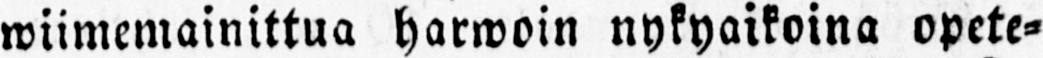wiimemainittua harwoin nykyaikoina opete-
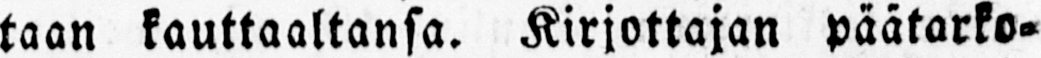taan kauttaaltansa. Kirjottajan päätarko-
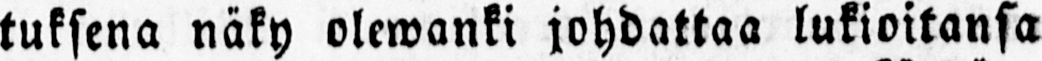tuksena näky olewanki johdattaa lukioitansa
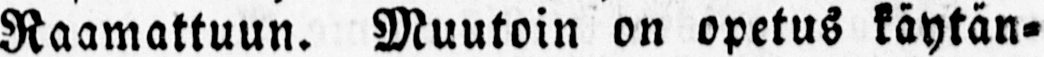Raamattuun. Muutoin on opetus käytän-
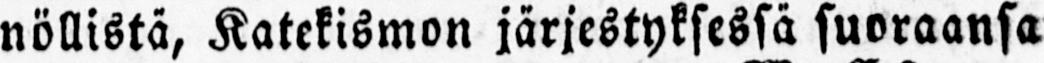nöllistä, Katekismon järjestyksessä suoraansa
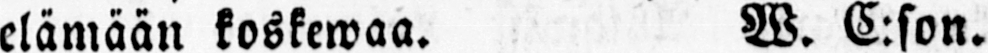elämään koskewaa. W. C:son.
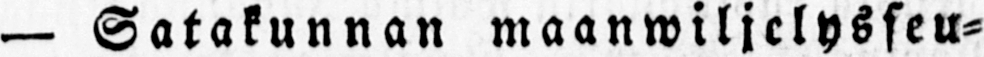— Satakunnan maanwiljelysseu-
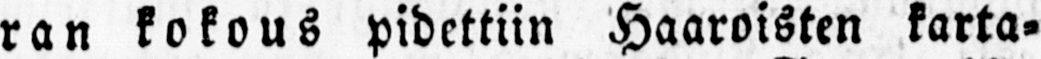ran kokous pidettiin Haaroisten karta-
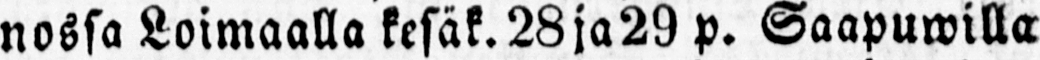nossa Loimaalla kesäk. 28 ja 29 p. Saapuwilla
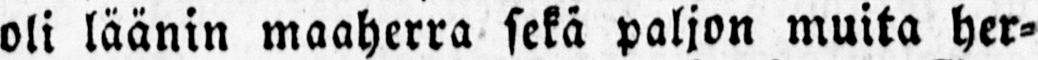oli läänin maaherra sekä paljon muita her-
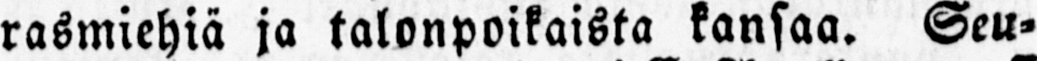rasmiehiä ja talonpoikaista kansaa. Seu-
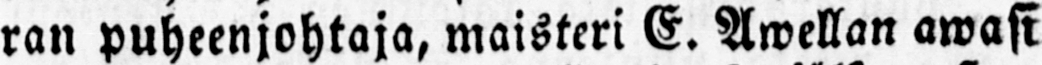ran puheenjohtaja, maisteri E. Awellan owasi
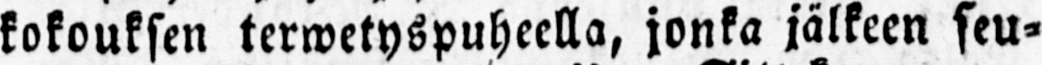kokouksen terwetyspuheella, jonka jälkeen seu-
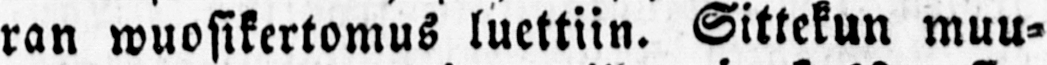ran wuosikertomus luettiin. Sittekun muu-
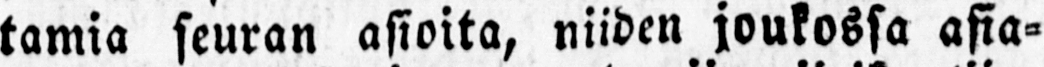tamia seuran asioita, niiden joukossa asia-
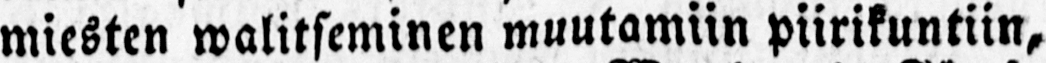miesten walitseminen muutamiin piirikuntiin,
